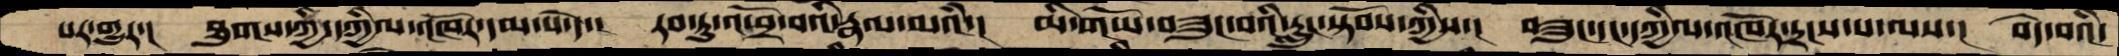པར་གྱུར་།  ཐུགས་ཀྱི་དཀྱིལ་འཁོར་དམ་པ་དེ་།  རབ་ཏུ་འཕྲོ་བའི་རྣལ་མའཾ་།  མི་གཡོ་བཟུང་བའི་རླུང་སྟོབས་ཀྱིས་།  བཟུང་དང་དཀྱིལ་འཁོར་དྲངས་པ་ལས་།  བདེ་བའི་
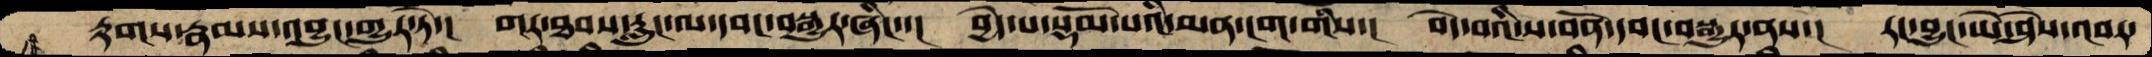རྟགས་རྣམས་འབྱུང་གྱུར་ཏེ་། གར་ཐབས་རླུང་ལ་དབང་བསྒྱུར་ཞིང་་། བྱེད་པ་སྡོམ་པའི་མན་ངག་གིས་། བདེ་བའི་ས་བོན་དབང་བསྒྱུར་ནས་། རང་བྱུང་ཡེ་ཤེས་འབར་
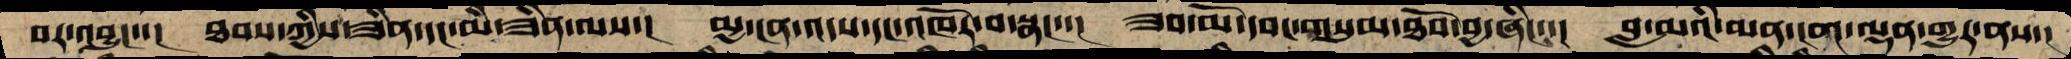བར་འབྱུང་་།  ཐབས་ཀྱིས་ཟིན་དང་མི་ཟིན་ལས་།  མྱ་ངན་འདས་དང་འཁོར་བ་སྣང་་།  ཟབ་མོ་དབང་གསུམ་ཐོབ་བྱ་ཞིང་་།  བླ་མའི་མན་ངག་ལྡན་གྱུར་ནས་།
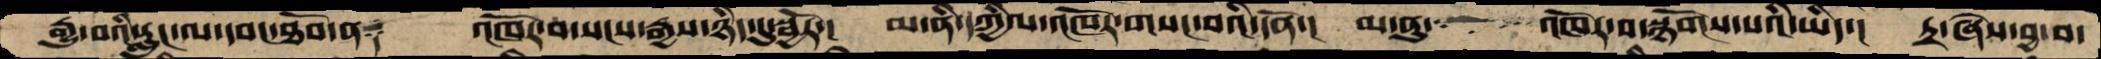རྒྱུ་བའི་རླུང་ལ་དབང་ཐོབ་ན༑  འཁོར་བ་སངས་རྒྱས་ཉིད་དུ་སྦྱོར་།  མ་ནི་དཀྱིལ་འཁོར་གསང་བའི་དོན་།   མ་ནུ་་  འཁོར་བ་སྙོགས་པའི་ཡིད་།  ཏྲ་ཞེས་བྱ་བ་
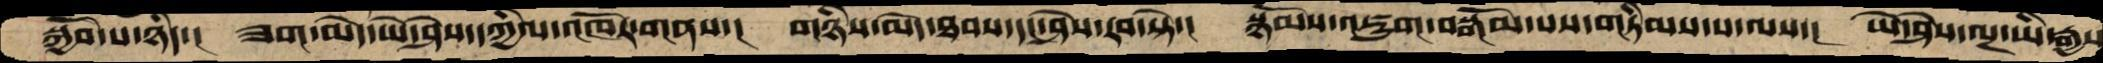སྐྱོབ་པ་ཉིད་།  ཟག་མེད་ཡེ་ཤེས་དཀྱིལ་འཁོར་གནས་།  གཉིས་མེད་ཐབས་དང་ཤེས་རབ་སྟེ་།  སྙོམས་འཇུག་བསྒོམ་པས་གཏིམས་པ་ལས་།   ཡེ་ཤེས་ལྔ་ཡི་རྒྱས
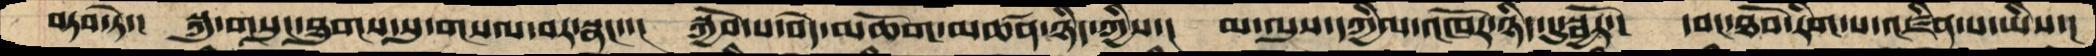བཏབ་ཏེ་།  སྐུ་གསུང་ཐུགས་སུ་གསལ་བར་སྣང་་།  སྐྱོབ་པ་བདེ་མཆོག་མཚན་ཉིད་ཀྱིས་།  མ་ལུས་དཀྱིལ་འཁོར་ཉིད་དུ་སྦྱོར་།  དབང་ཐོབ་རིག་པ་འཛིན་པ་ཡིས་།
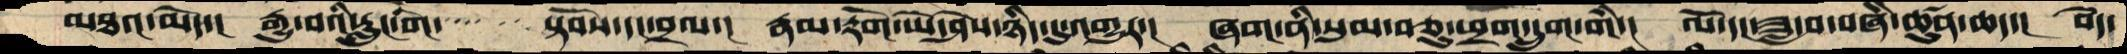མཐའ་མེད་།  རྒྱུ་བའི་རླུང་གི་་་་་ ་ ་ སྟོབས་དང་བྲལ་།  རྣམ་རྟོག་ཡེ་ཤེས་ཉིད་དུ་འགྱུར་།  ཞག་ནི་སུམ་བཅུ་ཕྲག་དྲུག་གི།  ལོ་དང་ཟླ་བ་བཞི་ཚུན་ཆད་།  བདེ་
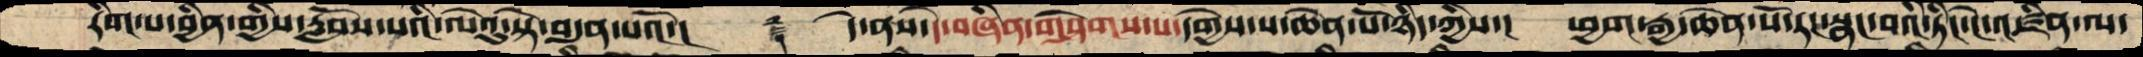རིག་པ་བྱིན་གྱིས་རློབས་པའི་ལེའུ་སྟེ་བདུན་པའོ་།    ࿑   དེ་ནས་དེ་བཞིན་གཤེགས་པ་དགྱེས་པ་ཆེན་པོ་ཉིད་ཀྱིས་།  ཕྱག་རྒྱ་ཆེན་པོ་རང་སྣང་བའི་ཏིང་ངེ་འཛིན་ལ་
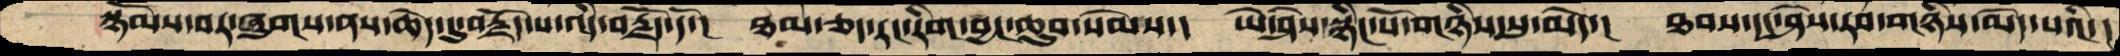སྙོམས་བར་ཞུགས་ནས་ཆེད་དུ་བརྗོད་པ་འདི་བརྗོད་དོ་།  ཐམ་ཅད་རང་རིག་བྱང་ཆུབ་སེམས་།  ཡེ་ཤེས་སྙིང་པོ་གཉིས་སུ་མེད་།  ཐབས་དང་ཤེས་རབ་གཉིས་མེད་པའི་།
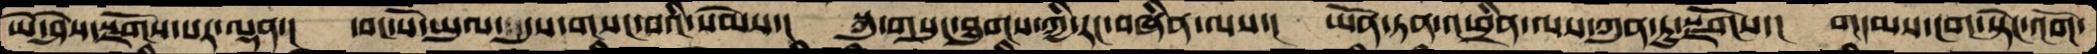ཡེ་ཤེས་སྫོགས་པར་ལྡན་།  དབང་པོ་ཡུལ་འདུས་གསང་བའི་སེམས་།  སྐུ་གསུང་ཐུགས་ཀྱི་རང་བཞིན་ལས་།  ཡོན་ཏན་འཕྲིན་ལས་ཀུན་ཏུ་སྫོགས་།  གདམས་ངག་སྟེང་འོག་
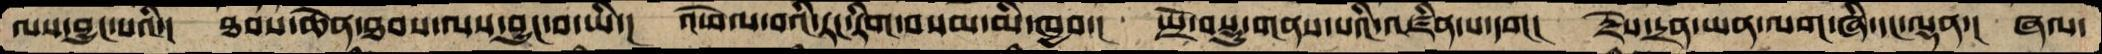ལས་བྱུང་པའི་།  ཐབས་ཆེན་ཐབས་ལས་བྱུང་བ་ཡི་།  འཕེལ་བའི་རང་རིག་བསམ་མི་ཁྱབ་།  སྤྲོ་བསྡུ་གནས་པའི་འཛིན་པ་དག་།  རྗེས་དྲན་ཡན་ལག་ཞི་དང་ལྡན་།  ཞལ་
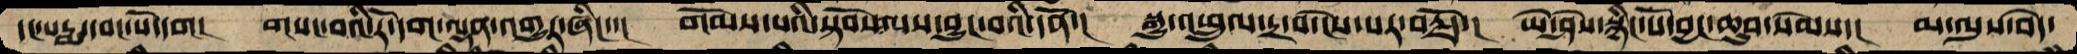དང་པདྨ་དབང་པོ་དག།  གསང་བའི་རོ་དག་ལྡན་འགྱུར་ཞིང་་།  གོམས་པའི་སྟོབས་ལས་བྱུང་བའི་དོན་།  སྒྱུ་འཕྲུལ་དྲ་བ་ངེས་པར་བརྗོད་།  ཡེ་ཤེས་སྙིང་པོ་བྱང་ཆུབ་སེམས་།  མ་ལུས་བདེ་
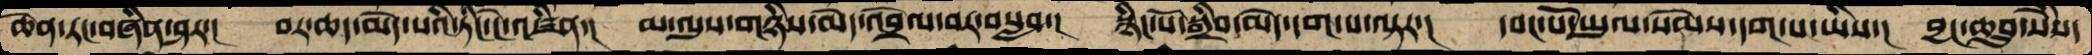ཆེན་རང་བཞིན་ཤར་།  བར་ཆད་མེད་པའི་ཏིང་ངེ་འཛིན་།  མ་ལུས་གཉིས་མེད་འབྲེལ་བར་བསླབ་།  སྙིང་པོ་སྒྲིབ་མེད་དག་པ་ལྟར་།  དབང་པོ་ཡུལ་སེམས་དག་པ་ཡིས་།  བྱང་ཆུབ་སེཾས་
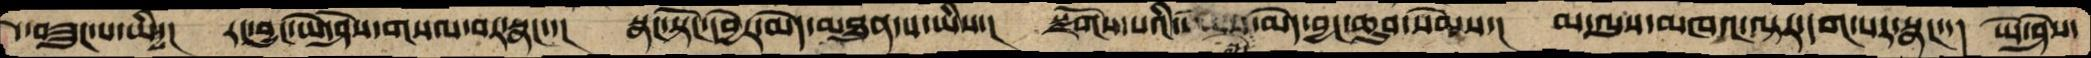དེ་བཟུང་པ་ཡིས་། རང་བྱུང་ཡེ་ཤེས་གསལ་བར་སྣང་་། སྣང་སྟོང་དབྱེར་མེད་མཐུན་པ་ཡིས་། སྫོགས་པའི་མེད་བྱང་ཆུབ་སེམས་། མ་ལུས་མཁའ་ལྟར་དག་པར་སྣང་་། ཡེ་ཤེས་
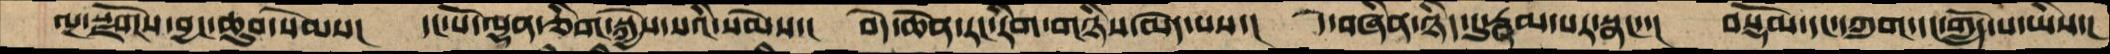ལྔ་སྫོགས་བྱང་ཆུབ་སེམས།  དང་པོ་ལྷན་ཅིག་སྐྱེས་པའི་སེམས་།  བདེ་ཆེན་རང་རིག་གཉིས་མེད་པས་།  དེ་བཞིན་ཉིད་དུ་རྣམ་པར་སྣང་་།  བསྡོམ་དང་དགུག་དང་གློད་པ་ཡིས་།
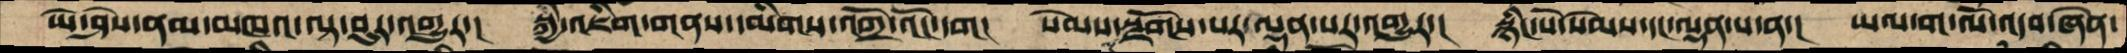ཡེ་ཤེས་ནམ་མཁའ་ལྟ་བུར་འགྱུར་། སྐྱི་འཇིག་གནས་དམིགས་འགྲོ་འོང་དག། སེམས་ལྔ་སྫོགས་པར་ལྡན་པར་འགྱུར་། སྙིང་པོ་སེམས་དང་ལྡན་པ་ན་། ཡལ་ག་ལོ་འདབ་ཞེན་
